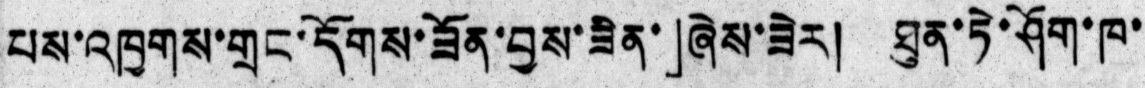པས་འཁྱགས་གྲང་དོགས་ཟོན་བྱས་ཟིན་」ཞེས་ཟེར།  ཐུན་ཏེ་ཤོག་ཁ་
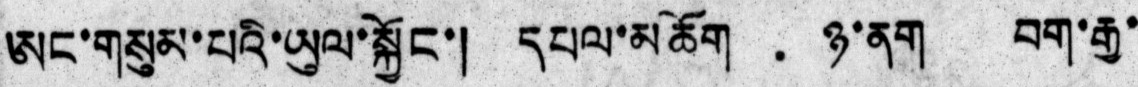ཨང་གསུམ་པའི་ཡུལ་སྐྱོང་།  དཔལ་མཆོག  ཉ་ནག  བག་རྒྱ་
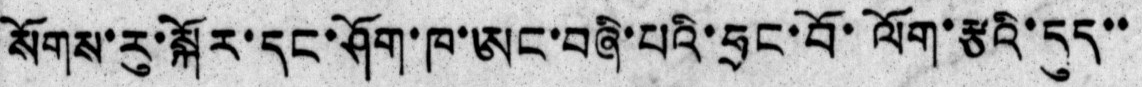སོགས་རུ་སྐོར་དང་ཤོག་ཁ་ཨང་བཞི་པའི་ཧྲང་བོ་ལོག་རྩའི་དུད་་
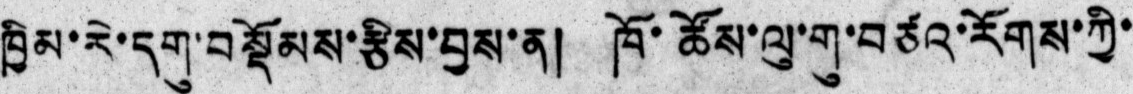ཁྱིམ་རེ་དགུ་བསྡོམས་རྩིས་བྱས་ན།  ཁོ་ཚོས་ལུ་གུ་བཙའ་རོགས་ཀྱི་
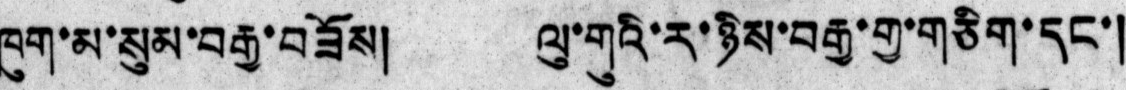ཁུག་མ་སུམ་བརྒྱ་བཟོས།  ལུ་གུའི་ར་ཉིས་བརྒྱ་གྱ་གཅིག་དང་།
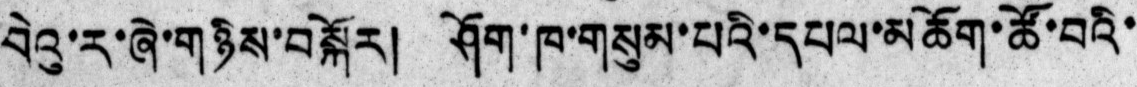བེའུ་ར་ཞེ་གཉིས་བསྐོར།  ཤོག་ཁ་གསུམ་པའི་དཔལ་མཆོག་ཚོ་བའི་
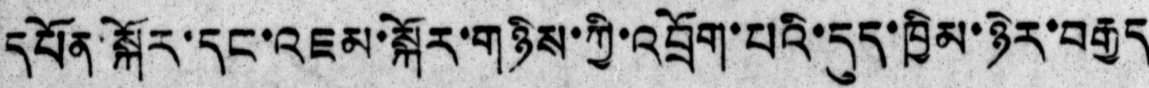དཔོན་སྐོར་དང་འཇམ་སྐོར་གཉིས་ཀྱི་འབྲོག་པའི་དུད་ཁྱིམ་ཉེར་བརྒྱད
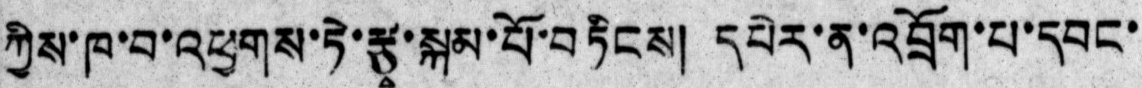ཀྱིས་ཁ་བ་འཕྱགས་ཏེ་རྩྭ་སྐམ་པོ་བཏིངས།  དཔེར་ན་འབྲོག་པ་དབང་
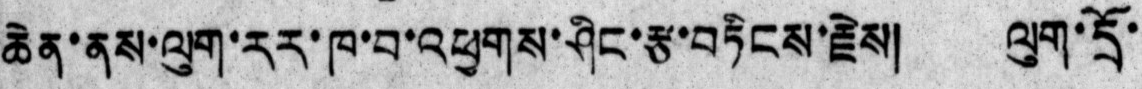ཆེན་ནས་ལུག་རར་ཁ་བ་འཕྱགས་ཤིང་རྩ་བཏིངས་རྗེས།  ལུག་དྲོ་
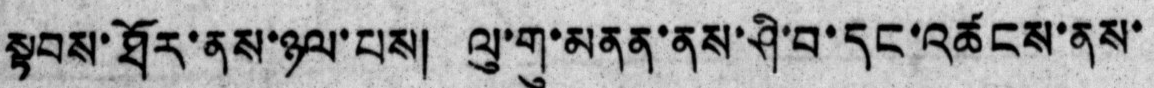སྟབས་ཐོར་ནས་ཉལ་པས།  ལུ་གུ་མནན་ནས་ཤི་བ་དང་འཚངས་ནས་
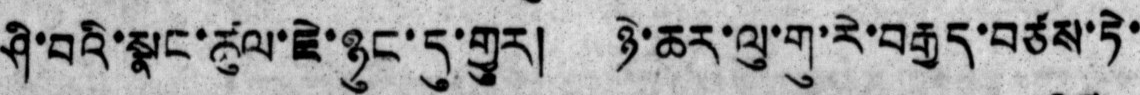ཤི་བའི་སྣང་ཚུལ་ཇེ་ཉུང་དུ་གྱུར།  ཉེ་ཆར་ལུ་གུ་རེ་བརྒྱད་བཙས་ཏེ་
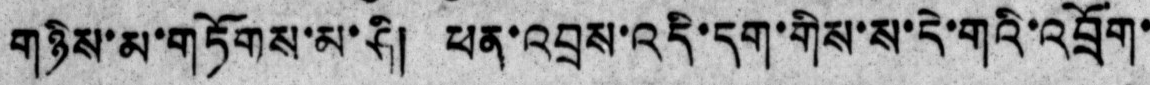གཉིས་མ་གཏོགས་མ་ཤི།  ཕན་འབྲས་འདི་དག་གིས་ས་དེ་གའི་འབྲོག་
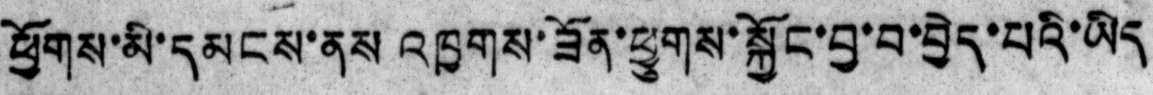ཕྱོགས་མི་དམངས་ནས་འཁྱགས་ཟོན་ཕྱུགས་སྐྱོང་བྱ་བ་བྱེད་པའི་ཡིད
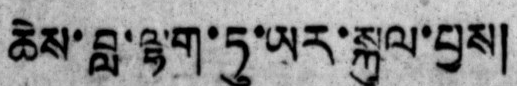ཆེས་བླ་ལྷག་ཏུ་ཡར་སྐུལ་བྱས།
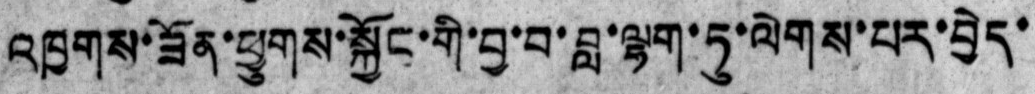འཁྱགས་ཟོན་ཕྱུགས་སྐྱོང་གི་བྱ་བ་བླ་ལྷག་ཏུ་ལེགས་པར་བྱེད་
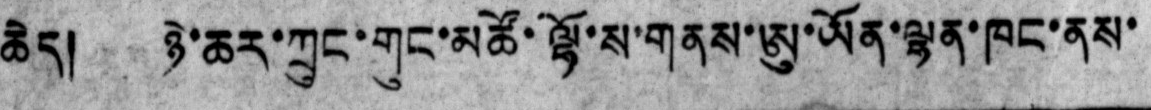ཆེད། ཉེ་ཆར་ཀྲུང་གུང་མཚོ་ལྷོ་ས་གནས་ཨུ་ཡོན་ལྷན་ཁང་ནས་
